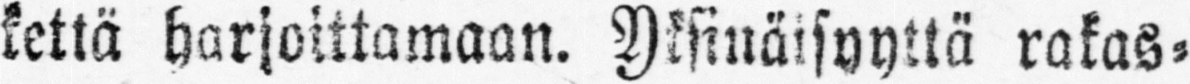kettä harjoittamaan. Yksinäisyyttä rakas-
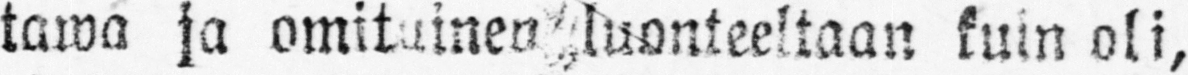tawa ja omituinen luonteeltaan kuin oli,
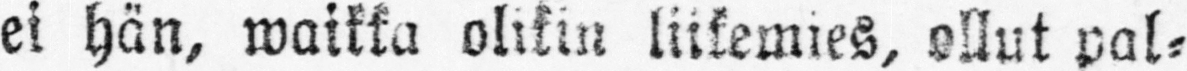ei hän, waikka olikin liikemies, ollut pal-
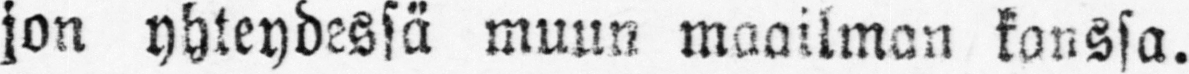jon yhteydessä muun maailman kanssa.
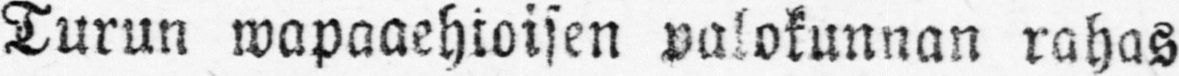Turun wapaaehtoisen palokunnan rahas
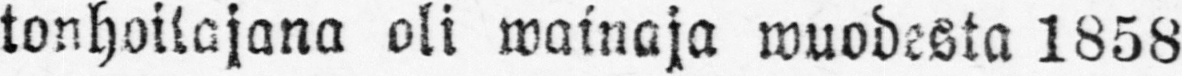tonhoilajana oli wainaja wuodesta 1858
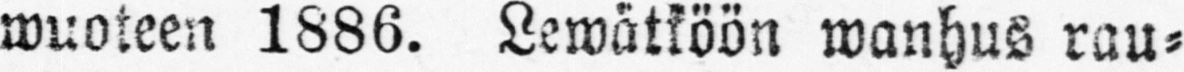wuoteen 1886. Lewätköön wanhus rau-
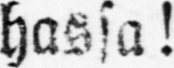hassa!
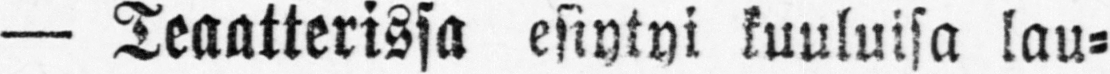— Teaatterissa esiytyi kuuluisa lau-
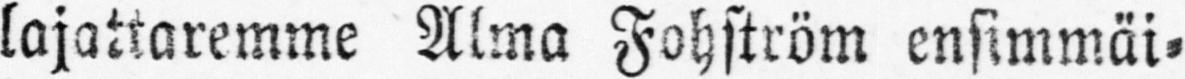lajattaremme Alma Fohström ensimmäi-
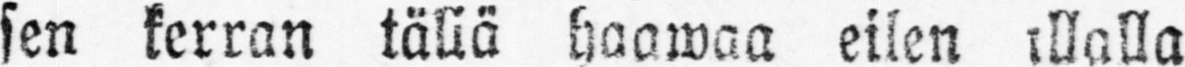sen kerran täliä haawaa eilen illalla
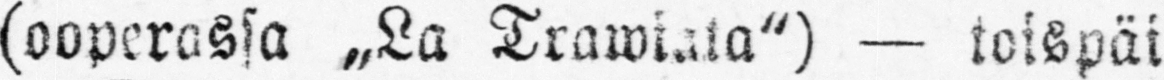(ooperassa „La Trawiata") — toispäi-
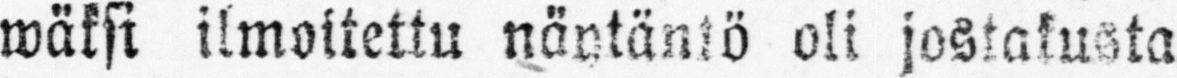wäksi ilmoitettu näytäntö oli jostakusta
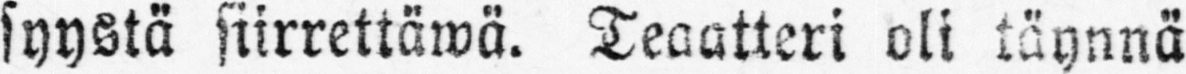syystä siirrettäwä. Teaatteri oli täynnä
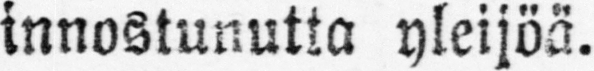innostunutta yleisöä.
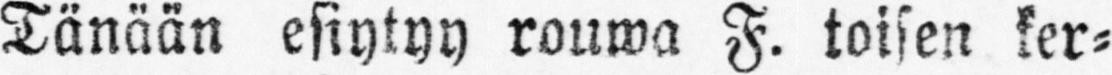Tänään esiytyy rouwa F. toisen ker-
